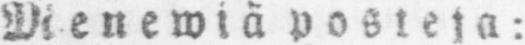Menewiä posteja:
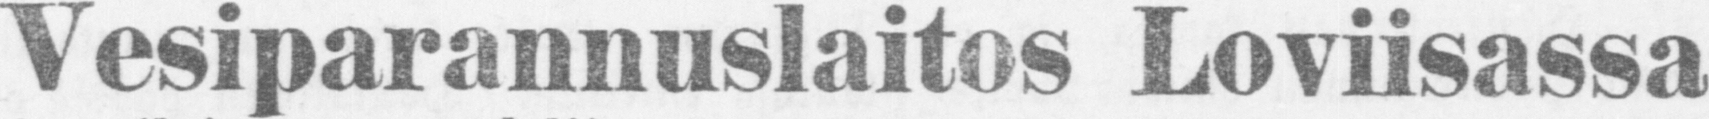Vesiparannuslaitos Loviisassa
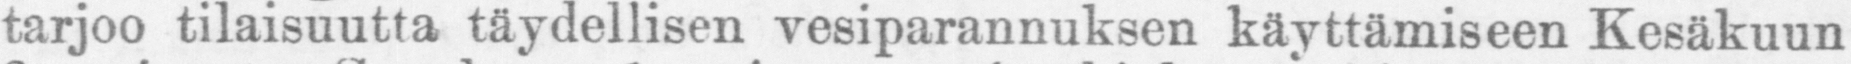tarjoo tilaisuutta täydellisen vesiparannuksen käyttämiseen Kesäkuun
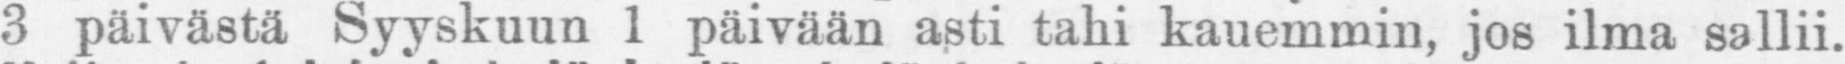3 päivästä Syyskuun 1 päivään asti tahi kauemmin, jos ilma sallii.
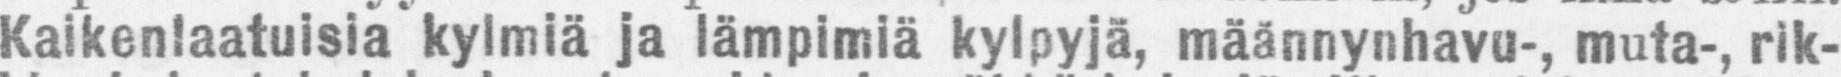Kaikenlaatuisia kylmiä ja lämpimiä kylpyjä, mäännynhavu-, muta-, rik-
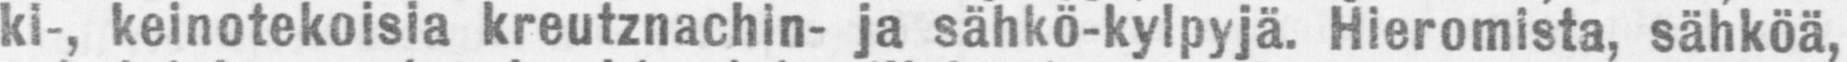ki-, keinotekoisia kreutznachin- ja sähkö-kylpyjä. Hieromista, sähk öä,
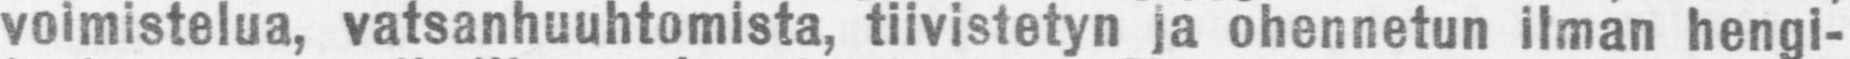voimistelua, vatsanhuuhtomista, tiivistetyn ja ohennetun ilman hengi-
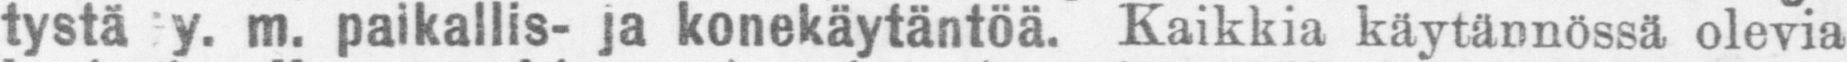tystä y. m. paikallis- ja konekäytäntöä. Kaikkia käytännössä olevia
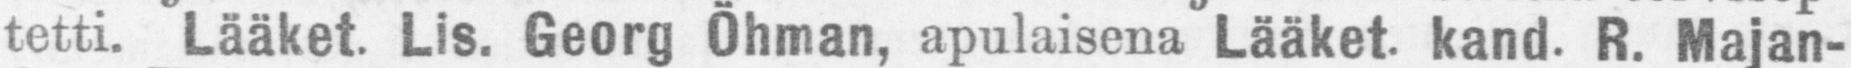tetti. Lääket. Lis. Georg Öhman, apulaisena Lääket. kand. R. Majan-
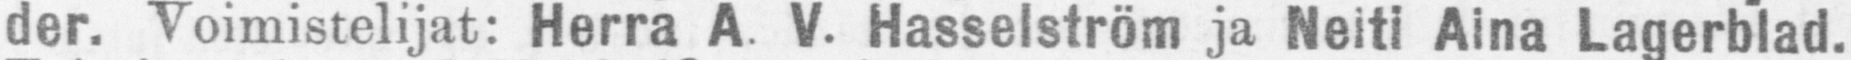der. Voimistelijat: Herra A. V. Hasselstr ö m ja Neiti Aina Lagerblad.
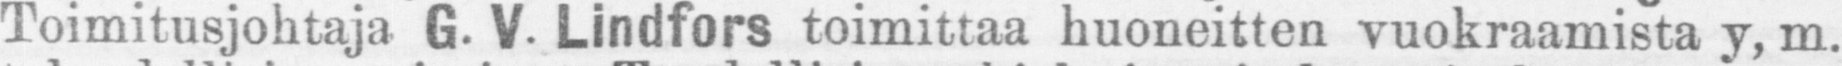Toimitusjohtaja G. V. Lindfors toimittaa huoneitten vuokraamista y, m.
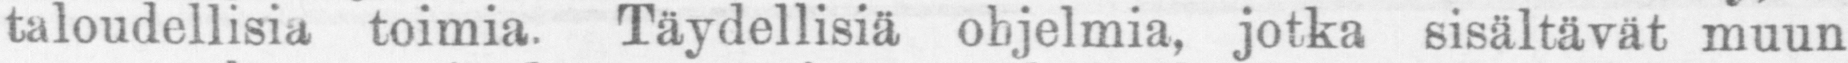taloudellisia toimia, Täydellisiä ohjelmia, jotka sisältävät muun
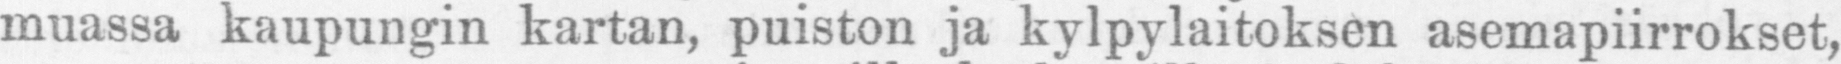muassa kaupungin kartan, puiston ja kylpylaitoksen asemapiirrokset,
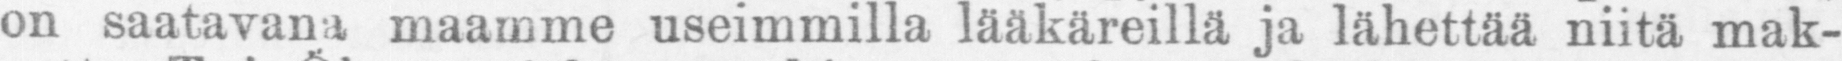on saatavana maamme useimmilla lääkäreillä ja lähettää niitä mak-
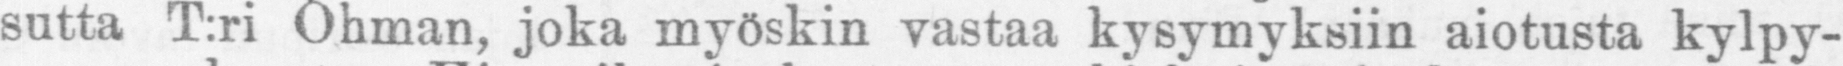sutta T:ri Öhman, joka myöskin vastaa kysymyksiin aiotusta kylpy-
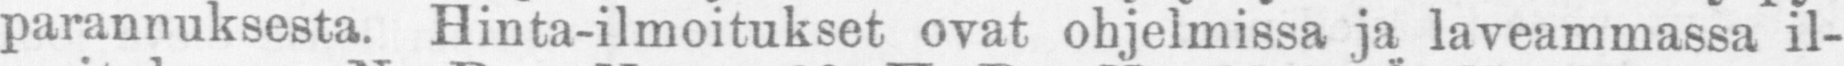parannuksesta. Hinta-ilmoitukset ovat ohjelmissa ja laveammassa il-
